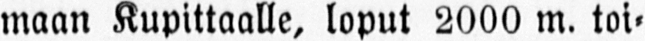maan Kupittaalle, loput 2000 m. toi-
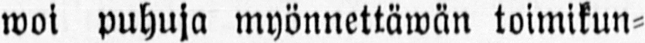woi puhuja myönnettäwän toimikun-
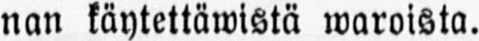nan käytettäwistä waroista.
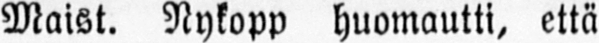Maist. Nykopp huomautti, että
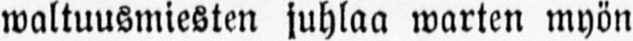waltuusmiesten juhlaa warten myön-
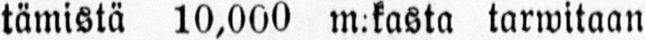tömistä 10,000 m:kasta tarwitaan
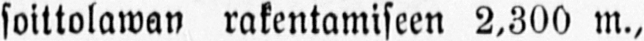soittolawan rakentamiseen 2,300 m.,
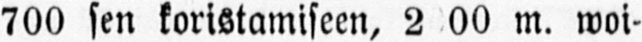700 sen koristamiseen, 2000 m. woi-
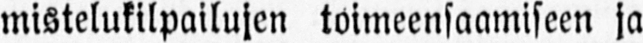mistelukilpailujen toimeensaamiseen ja
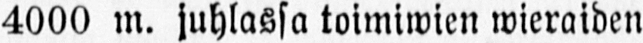4000 m. juhlassa toimiwien wieraiden
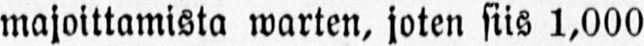majoittamista warten, joten siis 1,000
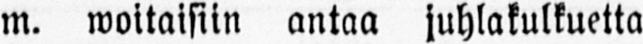m. woitaisiin antaa juhlakulkuetta
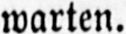warten.
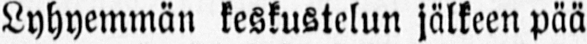Lyhyemmän keskustelun jälkeen pää
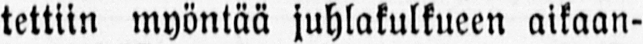lettiin myöntää juhlakulkueen aikaan-
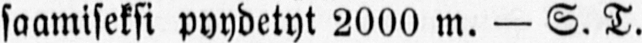saamiseksi pyydetyt 2000 m. — S. T.
